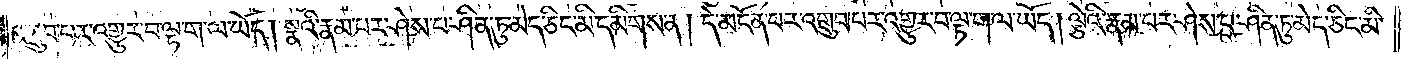འགྲུབ་པར་འགྱུར་བ་ལྟ་ག་ལ་ཡོད། སྣའི་རྣམ་པར་ཤེས་པ་ཤིན་ཏུ་མེད་ཅིང་མི་དམིགས་ན། དེ་མངོན་པར་འགྲུབ་པར་འགྱུར་བ་ལྟ་ག་ལ་ཡོད། ལྕེའི་རྣམ་པར་ཤེས་པ་ཤིན་ཏུ་མེད་ཅིང་མི་
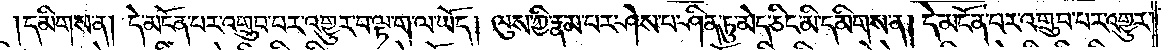དམིགས་ན། དེ་མངོན་པར་འགྲུབ་པར་འགྱུར་བ་ལྟ་ག་ལ་ཡོད། ལུས་ཀྱི་རྣམ་པར་ཤེས་པ་ཤིན་ཏུ་མེད་ཅིང་མི་དམིགས་ན། དེ་མངོན་པར་འགྲུབ་པར་འགྱུར་
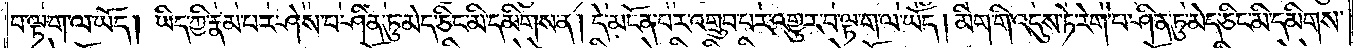བ་ལྟ་ག་ལ་ཡོད། ཡིད་ཀྱི་རྣམ་པར་ཤེས་པ་ཤིན་ཏུ་མེད་ཅིང་མི་དམིགས་ན། དེ་མངོན་པར་འགྲུབ་པར་འགྱུར་བ་ལྟ་ག་ལ་ཡོད། མིག་གི་འདུས་ཏེ་རེག་པ་ཤིན་ཏུ་མེད་ཅིང་མི་དམིགས་
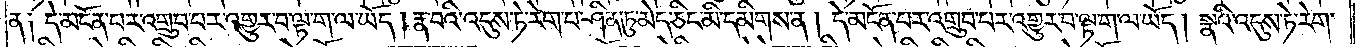ན༑ དེ་མངོན་པར་འགྲུབ་པར་འགྱུར་བ་ལྟ་ག་ལ་ཡོད། རྣ་བའི་འདུས་ཏེ་རེག་པ་ཤིན་ཏུ་མེད་ཅིང་མི་དམིགས་ན། དེ་མངོན་པར་འགྲུབ་པར་འགྱུར་བ་ལྟ་ག་ལ་ཡོད། སྣའི་འདུས་ཏེ་རེག་
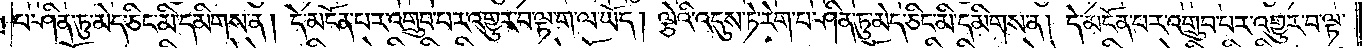པ་ཤིན་ཏུ་མེད་ཅིང་མི་དམིགས་ན། དེ་མངོན་པར་འགྲུབ་པར་འགྱུར་བ་ལྟ་ག་ལ་ཡོད། ལྕེའི་འདུས་ཏེ་རེག་པ་ཤིན་ཏུ་མེད་ཅིང་མི་དམིགས་ན། དེ་མངོན་པར་འགྲུབ་པར་འགྱུར་བ་ལྟ་
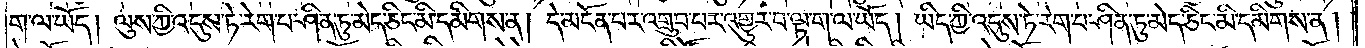ག་ལ་ཡོད། ལུས་ཀྱི་འདུས་ཏེ་རེག་པ་ཤིན་ཏུ་མེད་ཅིང་མི་དམིགས་ན། དེ་མངོན་པར་འགྲུབ་པར་འགྱུར་བ་ལྟ་ག་ལ་ཡོད། ཡིད་ཀྱི་འདུས་ཏེ་རེག་པ་ཤིན་ཏུ་མེད་ཅིང་མི་དམིགས་ན།
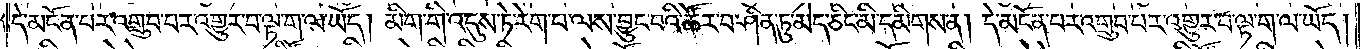དེ་མངོན་པར་འགྲུབ་པར་འགྱུར་བ་ལྟ་ག་ལ་ཡོད། མིག་གི་འདུས་ཏེ་རེག་པ་ལས་བྱུང་བའི་ཚོར་བ་ཤིན་ཏུ་མེད་ཅིང་མི་དམིགས་ན། དེ་མངོན་པར་འགྲུབ་པར་འགྱུར་བ་ལྟ་ག་ལ་ཡོད།
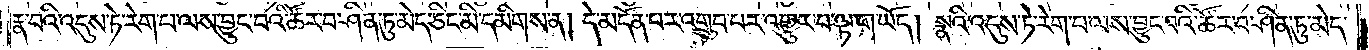རྣ་བའི་འདུས་ཏེ་རེག་པ་ལས་བྱུང་བའི་ཚོར་བ་ཤིན་ཏུ་མེད་ཅིང་མི་དམིགས་ན། དེ་མངོན་པར་འགྲུབ་པར་འགྱུར་བ་ལྟ་ག་ལ་ཡོད། སྣའི་འདུས་ཏེ་རེག་པ་ལས་བྱུང་བའི་ཚོར་བ་ཤིན་ཏུ་མེད་
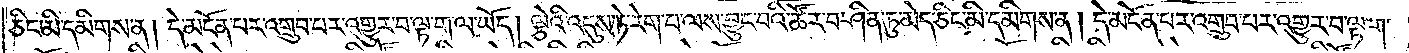ཅིང་མི་དམིགས་ན། དེ་མངོན་པར་འགྲུབ་པར་འགྱུར་བ་ལྟ་ག་ལ་ཡོད། ལྕེའི་འདུས་ཏེ་རེག་པ་ལས་བྱུང་བའི་ཚོར་བ་ཤིན་ཏུ་མེད་ཅིང་མི་དམིགས་ན། དེ་མངོན་པར་འགྲུབ་པར་འགྱུར་བ་ལྟ་ག་
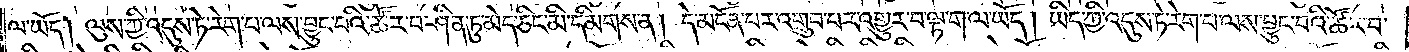ལ་ཡོད། ལུས་ཀྱི་འདུས་ཏེ་རེག་པ་ལས་བྱུང་བའི་ཚོར་བ་ཤིན་ཏུ་མེད་ཅིང་མི་དམིགས་ན། དེ་མངོན་པར་འགྲུབ་པར་འགྱུར་བ་ལྟ་ག་ལ་ཡོད། ཡིད་ཀྱི་འདུས་ཏེ་རེག་པ་ལས་བྱུང་བའི་ཚོར་བ་
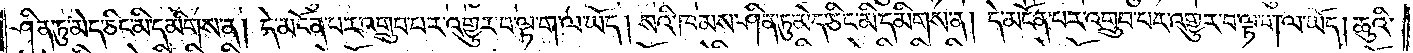ཤིན་ཏུ་མེད་ཅིང་མི་དམིགས་ན། དེ་མངོན་པར་འགྲུབ་པར་འགྱུར་བ་ལྟ་ག་ལ་ཡོད། སའི་ཁམས་ཤིན་ཏུ་མེད་ཅིང་མི་དམིགས་ན། དེ་མངོན་པར་འགྲུབ་པར་འགྱུར་བ་ལྟ་ག་ལ་ཡོད། ཆུའི་
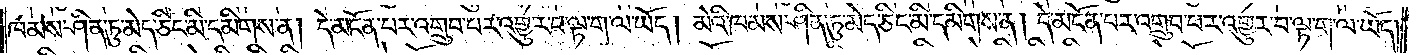ཁམས་ཤིན་ཏུ་མེད་ཅིང་མི་དམིགས་ན། དེ་མངོན་པར་འགྲུབ་པར་འགྱུར་བ་ལྟ་ག་ལ་ཡོད། མེའི་ཁམས་ཤིན་ཏུ་མེད་ཅིང་མི་དམིགས་ན། དེ་མངོན་པར་འགྲུབ་པར་འགྱུར་བ་ལྟ་ག་ལ་ཡོད།
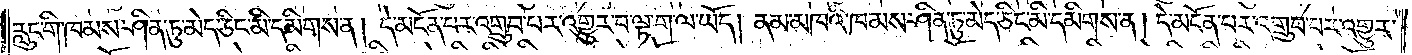རླུང་གི་ཁམས་ཤིན་ཏུ་མེད་ཅིང་མི་དམིགས་ན། དེ་མངོན་པར་འགྲུབ་པར་འགྱུར་བ་ལྟ་ག་ལ་ཡོད། ནམ་མཁའི་ཁམས་ཤིན་ཏུ་མེད་ཅིང་མི་དམིགས་ན། དེ་མངོན་པར་འགྲུབ་པར་འགྱུར་
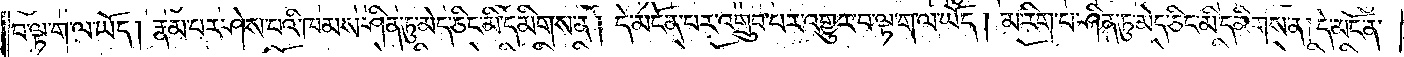བ་ལྟ་ག་ལ་ཡོད། རྣམ་པར་ཤེས་པའི་ཁམས་ཤིན་ཏུ་མེད་ཅིང་མི་དམིགས་ན། དེ་མངོན་པར་འགྲུབ་པར་འགྱུར་བ་ལྟ་ག་ལ་ཡོད། མ་རིག་པ་ཤིན་ཏུ་མེད་ཅིང་མི་དམིགས་ན། དེ་མངོན་
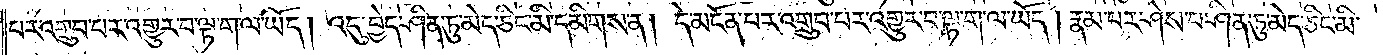པར་འགྲུབ་པར་འགྱུར་བ་ལྟ་ག་ལ་ཡོད། འདུ་བྱེད་ཤིན་ཏུ་མེད་ཅིང་མི་དམིགས་ན། དེ་མངོན་པར་འགྲུབ་པར་འགྱུར་བ་ལྟ་ག་ལ་ཡོད། རྣམ་པར་ཤེས་པ་ཤིན་ཏུ་མེད་ཅིང་མི་
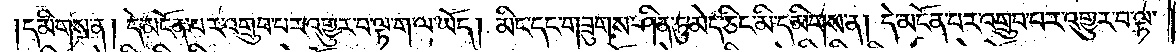དམིགས་ན། དེ་མངོན་པར་འགྲུབ་པར་འགྱུར་བ་ལྟ་ག་ལ་ཡོད། མིང་དང་གཟུགས་ཤིན་ཏུ་མེད་ཅིང་མི་དམིགས་ན། དེ་མངོན་པར་འགྲུབ་པར་འགྱུར་བ་ལྟ་
